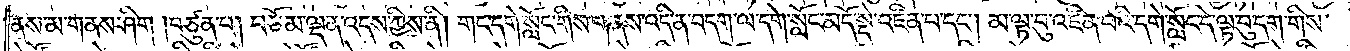ནས་མ་གནས་ཤིག །བཙུན་པ། བཅོམ་ལྡན་འདས་ཀྱིས་ནི། གང་དགེ་སློང་གིས་གནས་འདི་ན་བདག་ལ་དགེ་སློང་མདོ་སྡེ་འཛིན་པ་དང༌། མ་ལྟ་བུ་འཛིན་པའི་དགེ་སློང་དེ་ལྟ་བུ་དག་གིས་
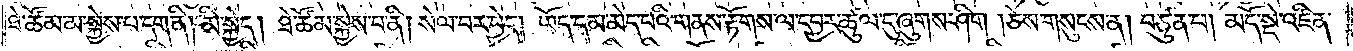ཐེ་ཚོམ་མ་སྐྱེས་པ་དག་ནི། མི་སྐྱེད། ཐེ་ཚོམ་སྐྱེས་པ་ནི། སེལ་བར་བྱེད། ཡོད་དམ་མེད་པའི་གནས་རྟོགས་ལ་དབྱར་ཚུལ་དུ་ཞུགས་ཤིག །ཅེས་གསུངས་ན། བཙུན་པ། མདོ་སྡེ་འཛིན་
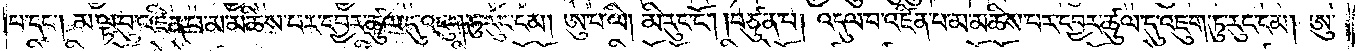པ་དང༌། མ་ལྟ་བུ་འཛིན་པ་མ་མཆིས་པར་དབྱར་ཚུལ་དུ་འཇུག་ཏུ་རུང་ངམ། ཨུ་པ་ལི། མི་རུང་ངོ༌། །བཙུན་པ། འདུལ་བ་འཛིན་པ་མ་མཆིས་པར་དབྱར་ཚུལ་དུ་འཇུག་ཏུ་རུང་ངམ། ཨུ་
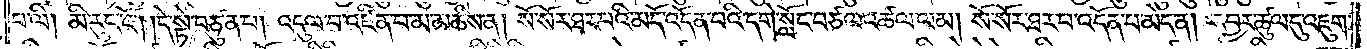པ་ལི། མི་རུང་ངོ༌། །དེ་སྟེ་བཙུན་པ། འདུལ་བ་འཛིན་པ་མ་མཆིས་ན། སོ་སོར་ཐར་པའི་མདོ་འདོན་པའི་དགེ་སློང་བཙལ་འཚལ་ལམ། སོ་སོར་ཐར་པ་འདོན་པ་མེད་ན། དབྱར་ཚུལ་དུ་འཇུག་
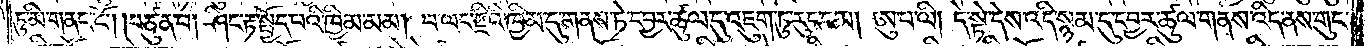ཏུ་མི་གནང་ངོ༌། །བཙུན་པ། ཤིང་རྟ་སྤྱོད་པའི་ཁྱིམ་མམ། བ་ལང་རྫིའི་ཁྱིམ་དུ་གནས་ཏེ་དབྱར་ཚུལ་དུ་འཇུག་ཏུ་རུང་ངམ། ཨུ་པ་ལི། དེ་སྟེ་དེས་འདི་སྙམ་དུ་དབྱར་ཚུལ་གནས་འདི་ནས་གུང་
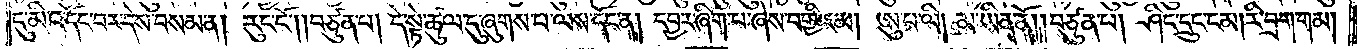དུ་མི་འདོང་བར་དེས་བསམ་ན། རུང་ངོ༌། །བཙུན་པ། དེ་སྟེ་ཚུལ་དུ་ཞུགས་པ་ལས་དོང་ན། དབྱར་ཞིག་པ་ཞེས་བགྱིའམ། ཨུ་པ་ལི། མ་ཡིན་ནོ། །བཙུན་པ། ཤིང་དྲུང་ངམ། རི་བྲག་གམ།
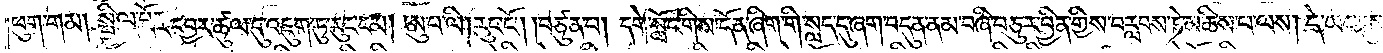ཕུག་གམ། སྤྱིལ་པོར་དབྱར་ཚུལ་དུ་འཇུག་ཏུ་རུང་ངམ། ཨུ་པ་ལི། རུང་ངོ༌། །བཙུན་པ། དགེ་སློང་གིས་དོན་ཞིག་གི་སླད་དུ་ཞག་བདུན་ནམ་བཞི་བཅུར་བྱིན་གྱིས་བརླབས་ཏེ་མཆིས་པ་ལས། དེ་ཡང་དུས་
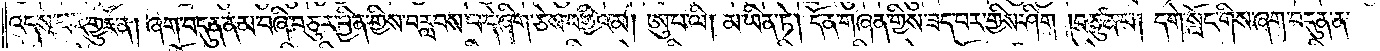འདས་པར་གྱུར་ན། ཞག་བདུན་ནམ་བཞི་བཅུར་བྱིན་གྱིས་བརླབས་པ་དེ་ཞིག་ཅེས་བགྱིའམ། ཨུ་པ་ལི། མ་ཡིན་ཏེ། དོན་གཞན་གྱི་ཟད་པར་གྱིས་ཤིག །བཙུན་པ། དགེ་སློང་གིས་ཞག་བདུན་ན་
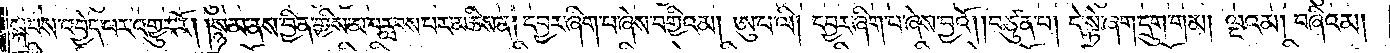སྐབས་འབྱེད་པར་འགྱུར་རོ། །སྙམ་ནས་བྱིན་གྱིས་མ་བརླབས་པར་མཆིས་ན། དབྱར་ཞིག་པ་ཞེས་བགྱིའམ། ཨུ་པ་ལི། དབྱར་ཞིག་པ་ཞེས་བྱའོ། །བཙུན་པ། དེ་སྟེ་ཞག་དྲུག་གམ། ལྔའམ། བཞིའམ།
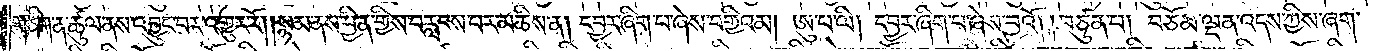གཅིག་ན་ཚུལ་ནས་འབྱུང་བར་འགྱུར་རོ༎སྙམ་ནས་བྱིན་གྱིས་བརླབས་པར་མཆིས་ན། དབྱར་ཞིག་པ་ཞེས་བགྱིའམ། ཨུ་པ་ལི། དབྱར་ཞིག་པ་ཞེས་བྱའོ། །བཙུན་པ། བཅོམ་ལྡན་འདས་ཀྱིས་ཞག་
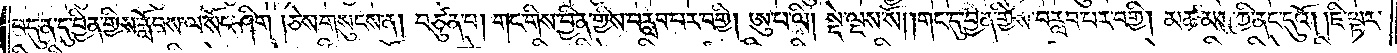བདུན་དུ་བྱིན་གྱིས་རློབས་ལ་སོང་ཤིག །ཅེས་གསུངས་ན། བཙུན་པ། གང་གིས་བྱིན་གྱིས་བརླབ་པར་བགྱི། ཨུ་པ་ལི། སྡེ་ལྔས་སོ། །གང་དུ་བྱིན་གྱིས་བརླབ་པར་བགྱི། མཚམས་ཀྱི་ནང་དུའོ། །ཇི་ལྟར་
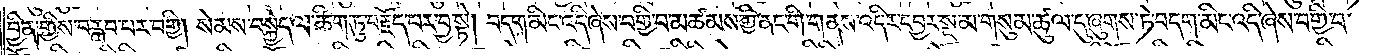བྱིན་གྱིས་བརླབ་པར་བགྱི། སེམས་བསྐྱེད་ལ་ཚིག་ཏུ་བརྗོད་པར་བྱ་སྟེ། བདག་མིང་འདི་ཞེས་བགྱི་བ་མཚམས་ཀྱི་ནང་གི་གནས་འདིར་དབྱར་སྔ་མ་གསུམ་ཚུལ་དུ་ཞུགས་ཏེ་བདག་མིང་འདི་ཞེས་བགྱི་བ་
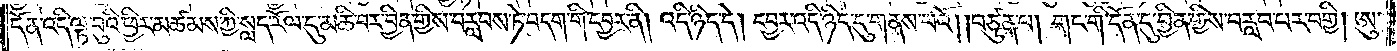དོན་འདི་ལྟ་བུའི་ཕྱིར་མཚམས་ཀྱི་སླད་རོལ་དུ་མཆི་བར་བྱིན་གྱིས་བརླབས་ཏེ་བདག་གི་དབྱར་ནི། འདི་ཉིད་དེ། དབྱར་འདི་ཉིད་དུ་གནས་པའོ། །བཙུན་པ། གང་གི་དོན་དུ་བྱིན་གྱིས་བརླབ་པར་བགྱི། ཨུ་
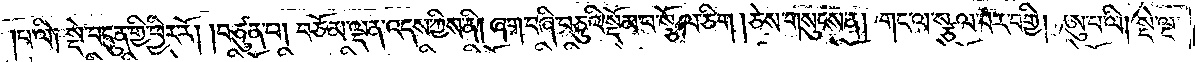།པ་ལི༑ སྡེ་བདུན་གྱི་ཕྱིར་རོ། །བཙུན་པ། བཅོམ་ལྡན་འདས་ཀྱིས་ནི། ཞག་བཞི་བཅུའི་སྡོམ་པ་སྩོལ་ཅིག །ཅེས་གསུངས་ན། གང་ལ་སྩལ་བར་བགྱི། ཨུ་པ་ལི། སྡེ་ལྔ་
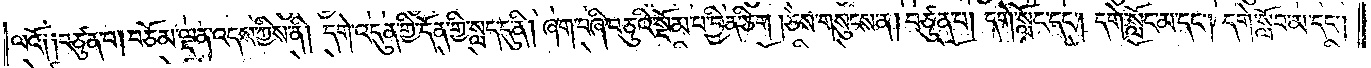ལའོ༑ ༑བཙུན་པ། བཅོམ་ལྡན་འདས་ཀྱིས་ནི། དགེ་འདུན་གྱི་དོན་གྱི་སླད་དུ་ནི། ཞག་བཞི་བཅུའི་སྡོམ་པ་བྱིན་ཅིག །ཅེས་གསུངས་ན། བཙུན་པ། དགེ་སློང་དང༌། དགེ་སློང་མ་དང༌། དགེ་སློབ་མ་དང༌།
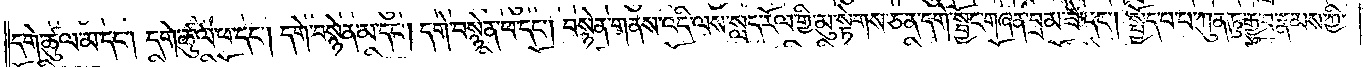དགེ་ཚུལ་མ་དང༌། དགེ་ཚུལ་ཕ་དང༌། དགེ་བསྙེན་མ་དང༌། དགེ་བསྙེན་ཕ་དང༌། བསྙེན་གནས་འདི་ལས་སླད་རོལ་གྱི་མུ་སྟེགས་ཅན་དགེ་སྦྱོང་གཞན་བྲམ་ཟེ་དང༌། སྤྱོད་པ་པ་ཀུན་ཏུ་རྒྱུ་བ་རྣམས་ཀྱི་
